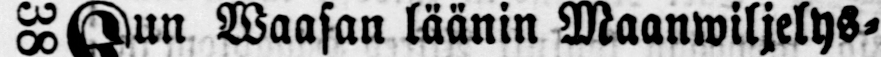386 Kun Waasan läänin Maanwiljelys-
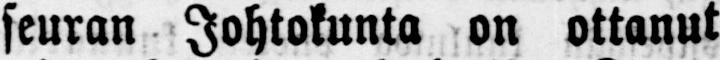seuran Johtokunta on ottanut
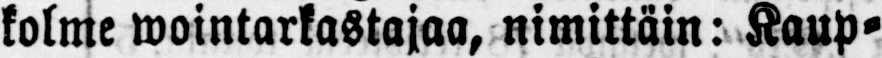kolme wointarkastajaa, nimittäin: Kaup-
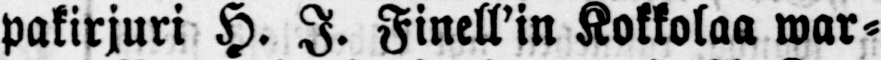pakirjuri H. J. Finell'in Kokkolaa war-
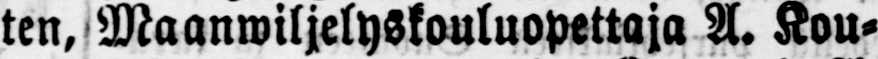ten, Maanwiljelyskouluopettaja A. Kou-
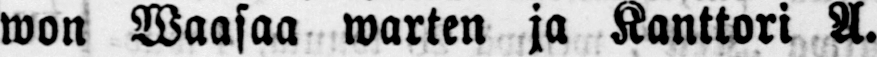won Waasaa warten ja Kanttori A.
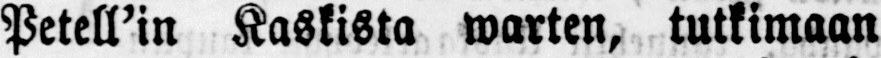Petell'in Kaskista warten, tutkimaan
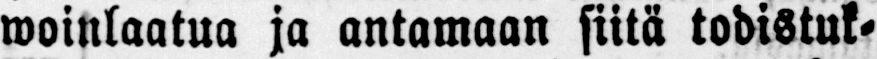woinlaatua ja antamaan siitä todistuk-
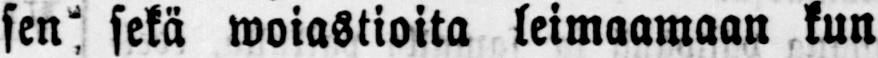sen sekä woiastioita leimaamaan kun
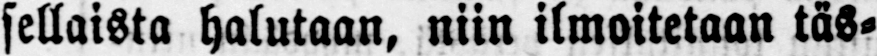sellaista halutaan, niin ilmoitetaan täs-
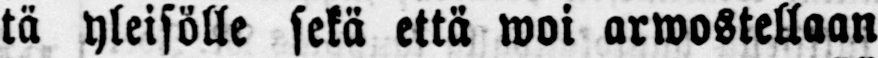tä yleisölle sekä että woi arwostellaan
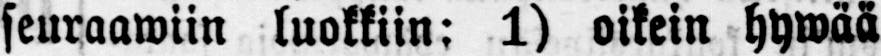seuraawiin luokkiin: 1) oikein hywää
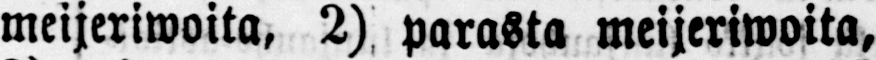meijeriwoita, 2) parasta meijeriwoita,
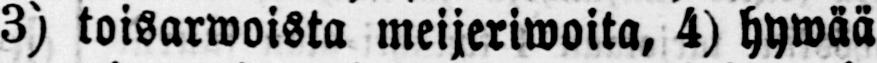3) toisarwoista meijeriwoita, 4) hywää
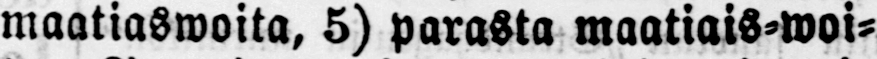maatiaswoita, 5) parasta maatiais-woi-
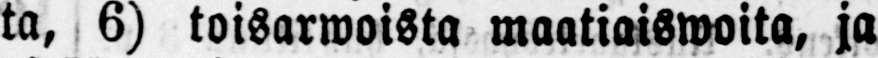ta, 6) toisarwoista maatiaiswoita, ja
